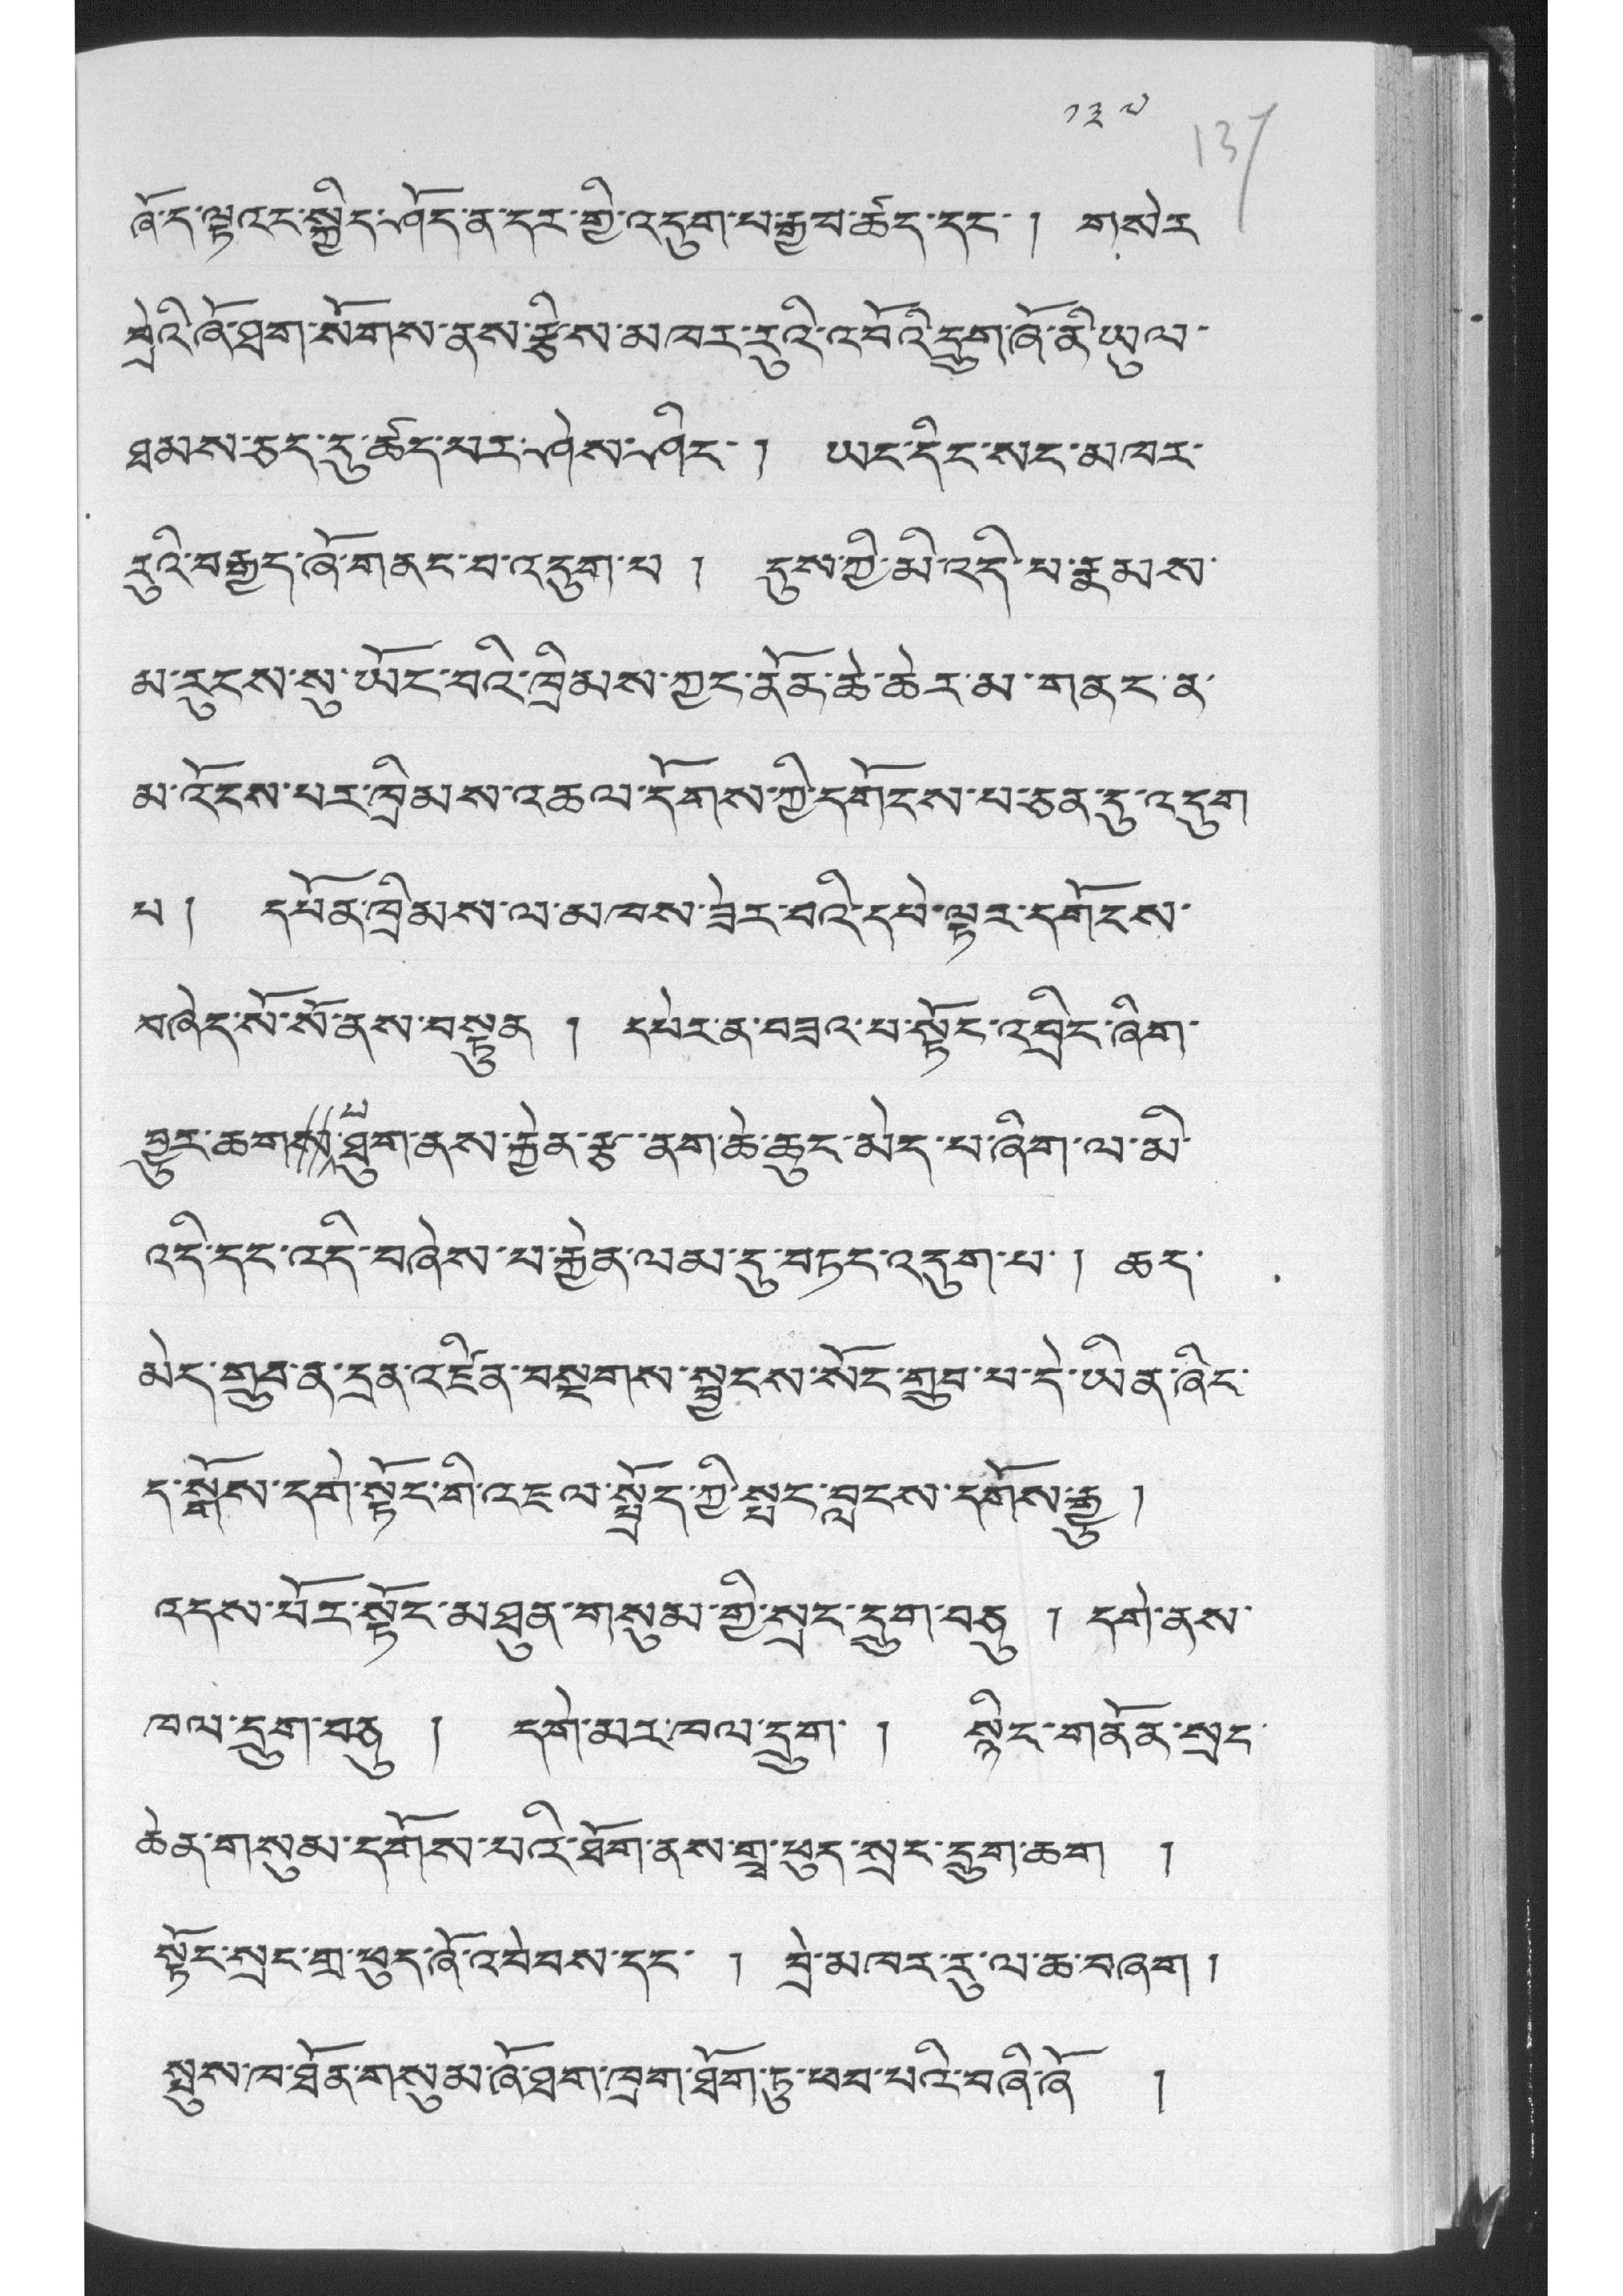༡༣༧
ཞོ་ད་ལྟའང་སྐྱིད་ཤོད་ན་དར་གྱི་འདུག་པ་རྒྱབ་ཚད་དང་། གསེར་
བྲེའི་ཞོ་ཐག་སོགས་ནས་རྩིས་མཁར་རུའི་འབོའི་དྲུག་ཞོ་ནི་ཡུལ་
ཐམས་ཅད་དུ་ཚད་པར་ཤེས་ཤིང་། ཡང་དིང་སང་མཁར་
རུའི་བརྒྱད་ཞོ་གནང་བ་འདུག་པ ། དུས་ཀྱི་མི་འདི་པ་རྣམས་
མ་རུངས་སུ་ཡོང་བའི་ཁྲིམས་ཀྱང་ནོན་ཆེ་ཆེར་མ་གནང་ན་
མ་འོངས་པར་ཁྲིམས་འཆལ་དོགས་ཀྱི་དགོངས་པ་ཅན་དུ་འདུག་
པ ། དཔོན་ཁྲིམས་ལ་མཁས་ཟེར་བའི་དཔེ་ལྟར་དགོངས་
བཞེད་སོ་སོ་ནས་བསྟུན ། དཔེར་ན་བཟའ་པ་སྟོང་འབྲིང་ཞིག་
བྱུར་ཆགས་པ་ཐུག་ནས་རྐྱེན་རྩ་ནག་ཆེ་ཆུང་མེད་པ་ཞིག་ལ་མི་
འདི་དང་འདི་བཞེས་པ་རྐྱེན་ལམ་དུ་བཏང་འདུག་པ་ ། ཆད་
མེད་གྲུབ་ན་དྲན་འཛིན་བསྔགས་སྦྱངས་སོང་གྲུབ་པ་དེ་ཡིན་ཞིང་
ད་སྒོས་དགེ་སྟོང་གི་འཇལ་སྤྲོད་ཀྱི་སྤང་བླངས་དགོས་རྒྱུ།
འདས་པོར་སྟོང་མཐུན་གསུམ་གྱི་སྲང་དྲུག་བཅུ ། དགེ་ནས་
ཁལ་དྲུག་བཅུ ། དགེ་མར་ཁལ་དྲུག་ ། སྙིང་གནོན་སྲང་
ཆེན་གསུམ་དགོས་པའི་ཐོག་ནས་གྲྭ་ཕུད་སྲང་དྲུག་ཆག །
སྟོང་སྲང་གྲ་ཕུད་ཞོ་འབེབས་དང་ ། བྲེ་མཁར་རུ་ལ་ཆ་བཞག །
སྤུས་ཁ་ཐོན་གསུམ་ཞོ་ཐག་ཁྲག་ཐོག་ཏུ་ཕབ་པའི་བཞི་ཞོ །
